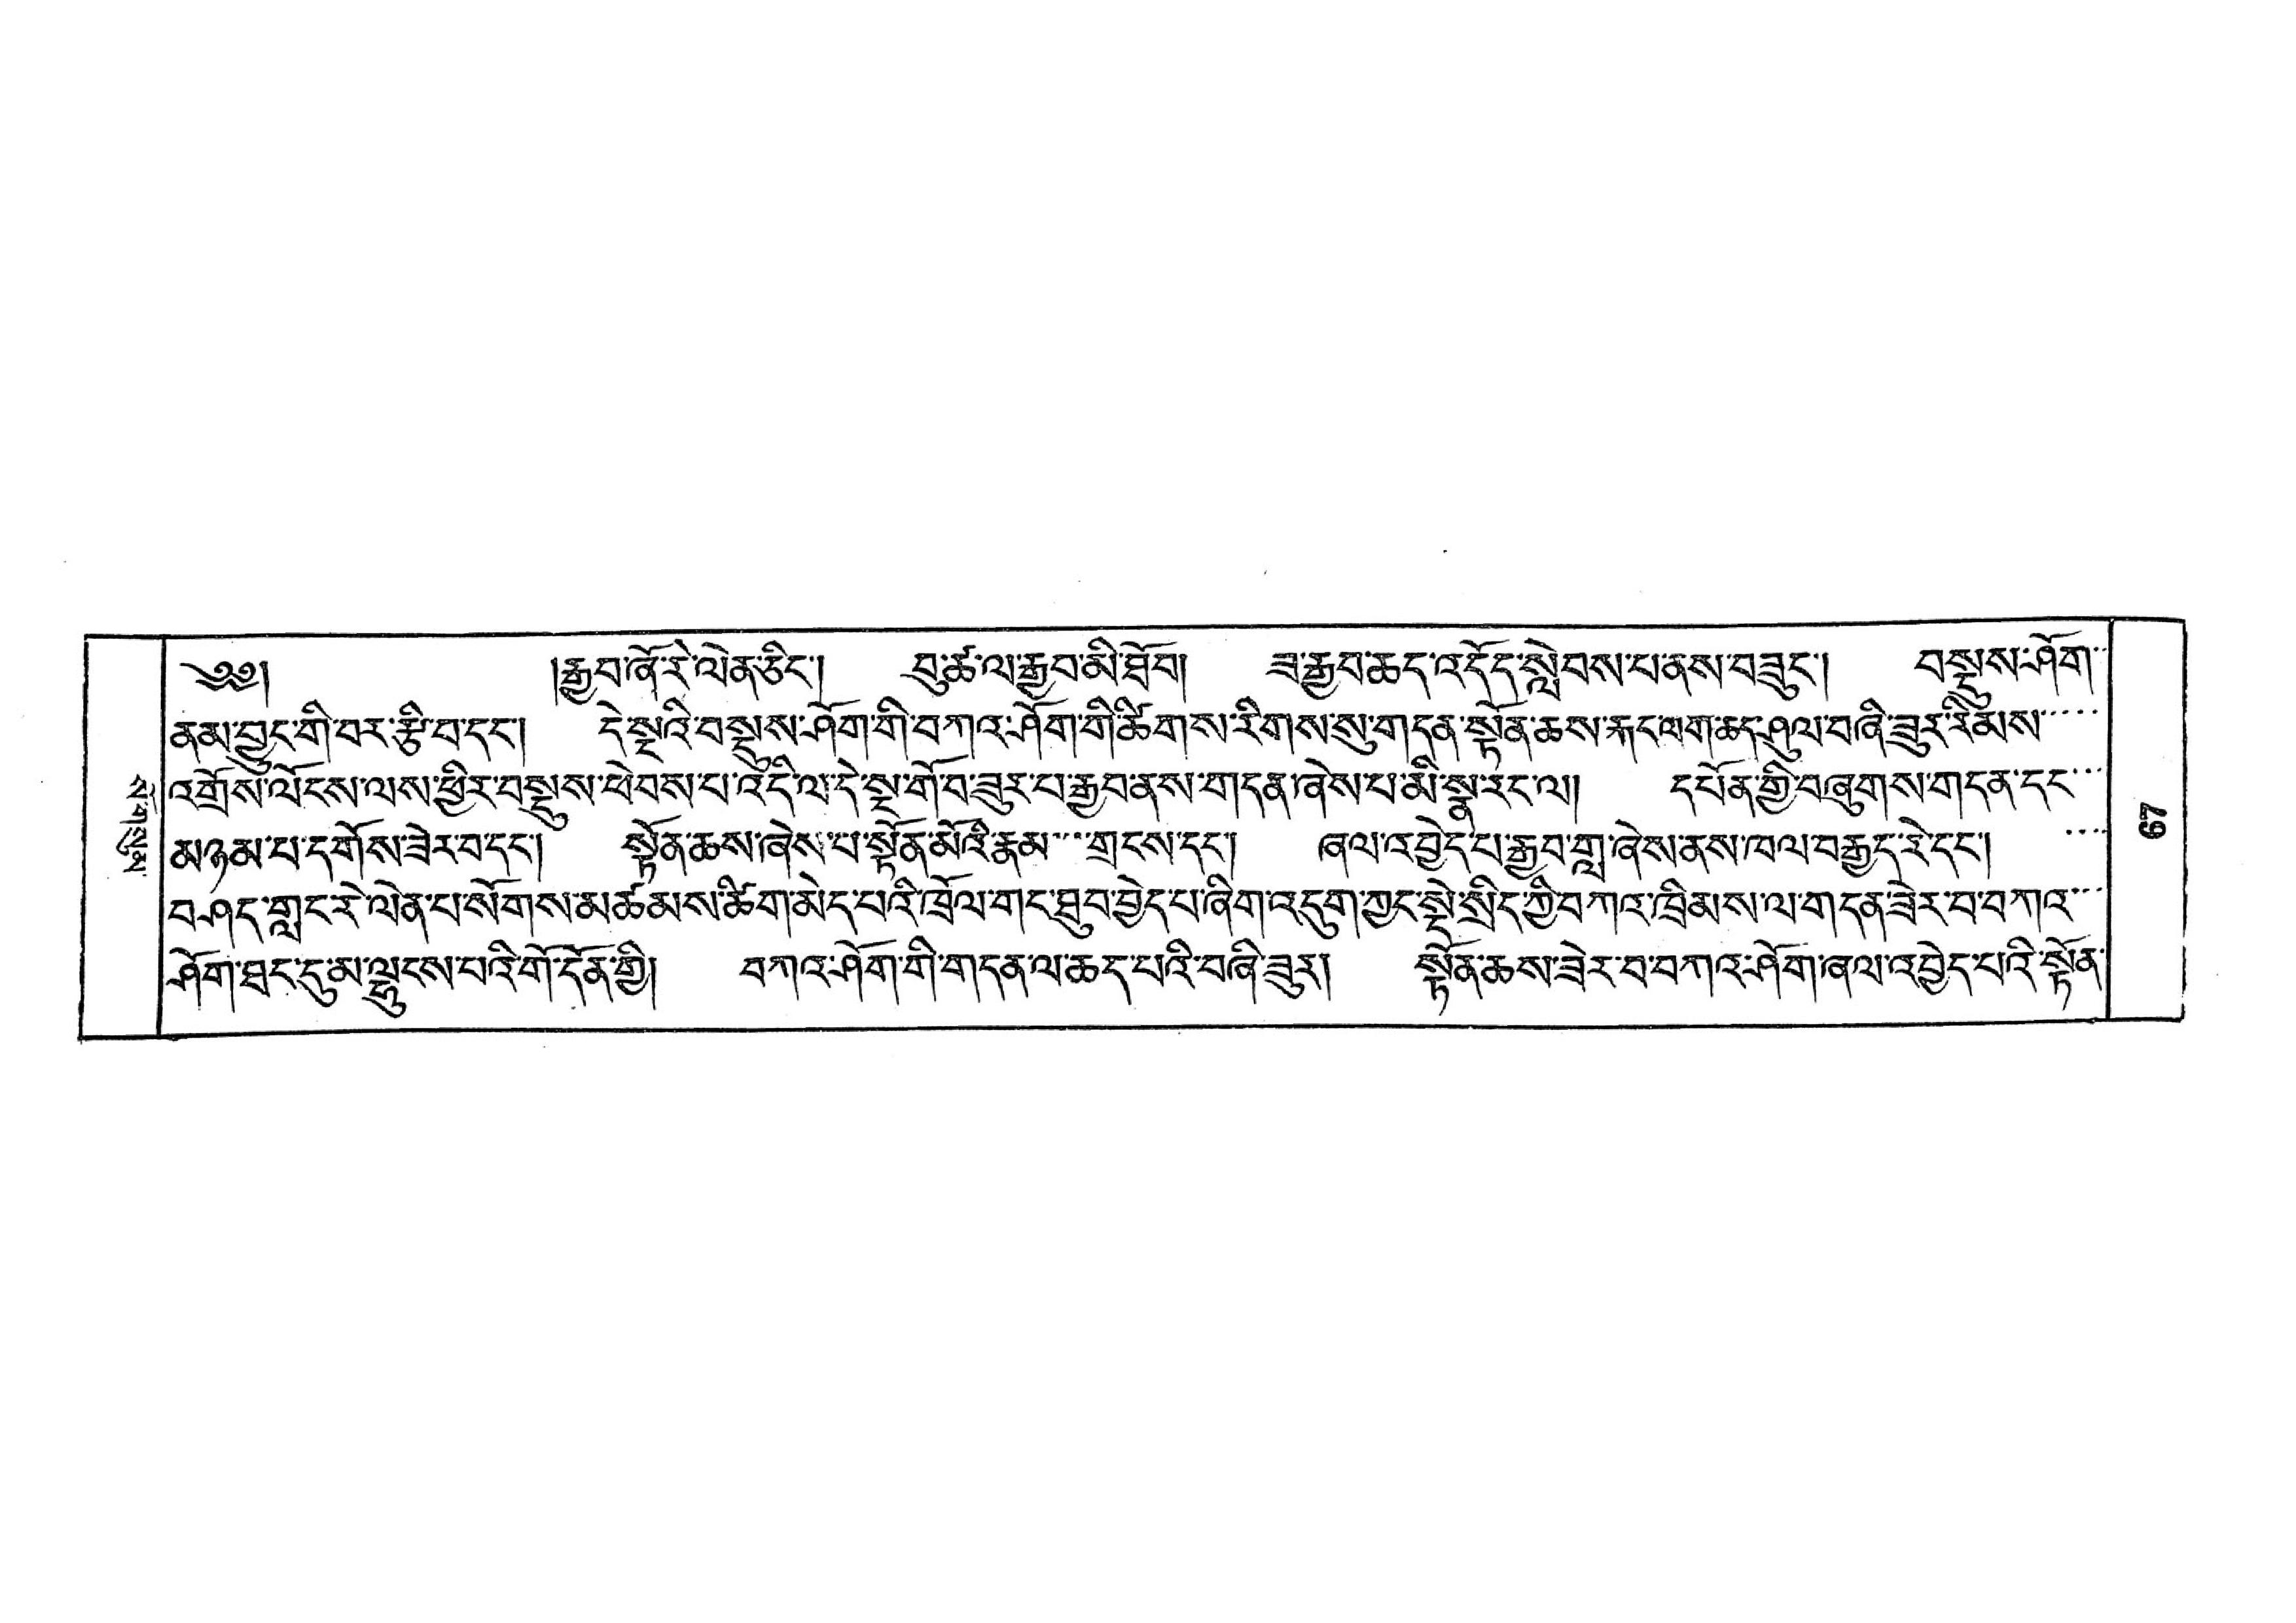སོ་གསུམ་
༄༅།  །རྒྱབ་ཞོ་རེ་ལེན་ཅིང་། བུ་ཚ་ལ་རྒྱབ་མི་ཐོབ། ཟ་རྒྱབ་ཆད་འདོད་སླེབས་པ་ནས་བཟུང་། བསྡུས་ཤོག་་
ནམ་བྱུང་གི་བར་རྩི་བ་དང་། དེ་སྔའི་བསྡུས་ཤོག་གི་བཀའ་ཤོག་གི་ཚོགས་རིགས་སུ་གདན་སྟོན་ཆས་རྐང་ལག་ཆད་ཤུལ་བཞི་ཟུར་རིམས་་་་
འགྲོས་ལོངས་ལས་ཕྱིར་བསྡུས་ཕེབས་པ་འདི་ལ་དེ་སྔ་གོ་བ་ཟུར་པ་རྒྱབ་ནས་གདན་ཞེས་པ་མི་སྣ་རང་ལ། དཔོན་གྱི་བཞུགས་གདན་དང་་་
མཉམ་པ་དགོས་ཟེར་བ་དང་། སྟོན་ཆས་ཞེས་པ་སྟོན་མོའི་རྣམ་་་གྲངས་དང་། ཞལ་འབྱེད་པ་རྒྱབ་གླ་ཞེས་ནས་ཁལ་བརྒྱུད་རེ་དང་།  ་་་་
བཤད་གླང་རེ་ལེན་པ་སོགས་མཚམས་ཚིག་མེད་པའི་ཁྲོལ་གང་ཐུབ་བྱེད་པ་ཞིག་འདུག་ཀྱང་སྡེ་སྲིད་ཀྱི་བཀའ་ཁྲིམས་ལ་གདན་ཟེར་བ་བཀའ་་་
ཤོག་ཐད་དུ་མ་ལྷུངས་པའི་གོ་དོན་གྱི། བཀའ་ཤོག་གི་གདན་ལ་ཆད་པའི་བཞི་ཟུར། སྟོན་ཆས་ཟེར་བ་བཀའ་ཤོག་ཞལ་འབྱེད་པའི་སྟོན་
